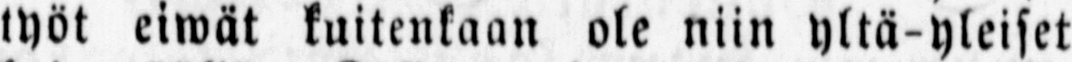työt eiwät kuitenkaan ole niin yltä-yleiset
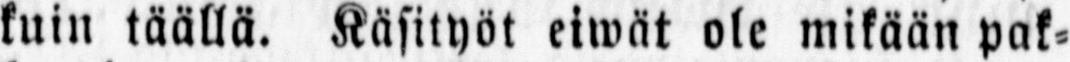kuin täällä. Käsityöt eiwät ole mikään pak-
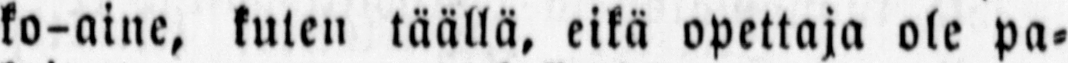ko-aine, kuten täällä, eikä opettaja ole pa-
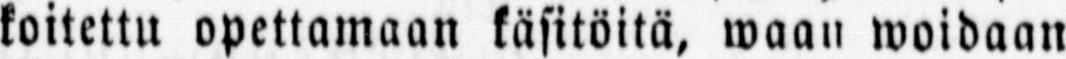koitettu opettamaan käsitöitä, waan woidaan
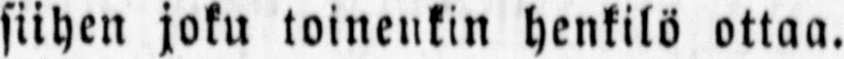siihen joku toinenkin henkilö ottaa.
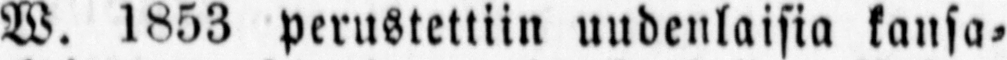W. 1853 perustettiin uudenlaisia kansa-
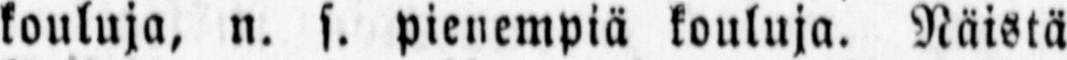kouluja, n. s. pienempiä kouluja. Näistä
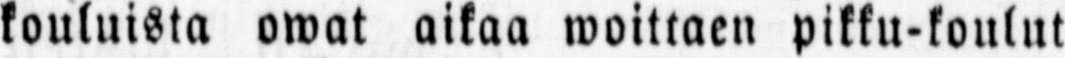kouluista owat aikaa woittaen pikku-koulut
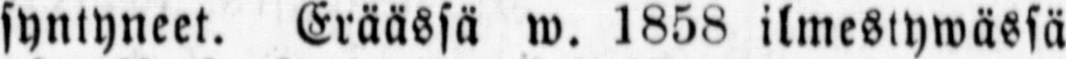syntyneet. Eräässä w. 1858 ilmestywässä
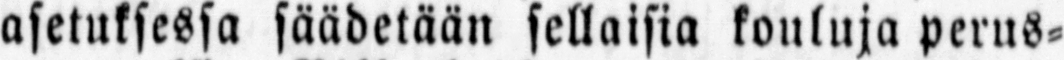asetuksessa säädetään sellaisia kouluja perus-
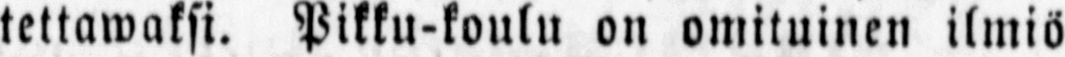tettawaksi. Pikku-koulu on omituinen ilmiö
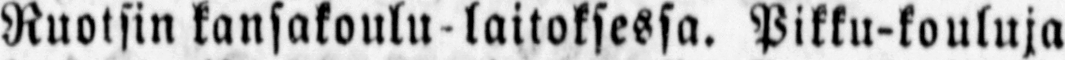Ruotsin kansakoulu laitoksessa. Pikku-kouluja
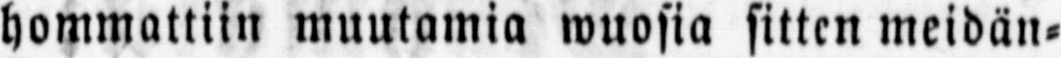hommattiin muutamia wuosia sitten meidän-
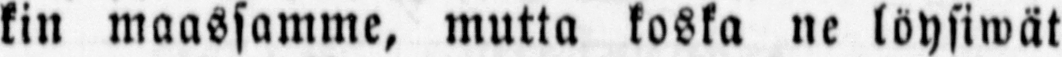kin maassamme, mutta koska ne löysiwät
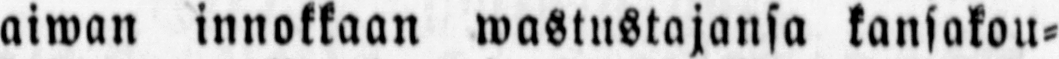aiwän innokkaan wastustajansa kansakou-
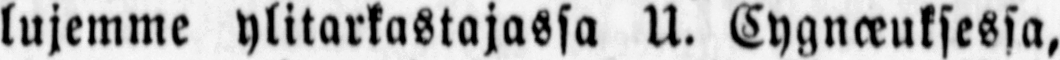lujemme ylitarkastajassa U. Cygnœuksessa,
